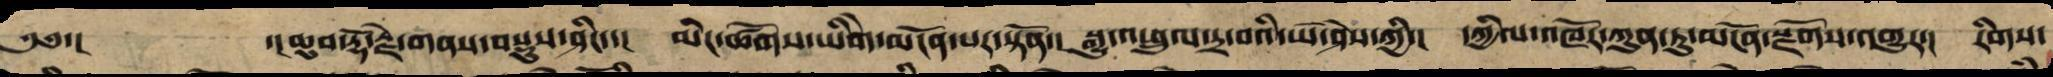༄༅་།  ་།ཆུབ་རྡོ་རྗེ་གནས་བསྡུས་ཤིང་་། མིང་ཚོགས་ཡི་གེ་མངོན་པར་སྟོན་། སྒྱུ་འཕྲུལ་དྲ་བའི་ཡེ་ཤེས་ཀྱིས་། དཀྱིལ་འཁོར་ཀུན་དུ་མངོན་སྫོགས་འགྱུར་། རིགས་
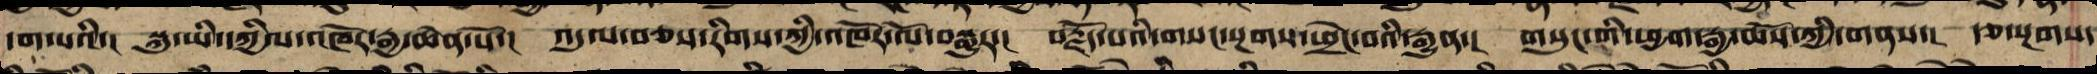དག་པའི་། སྐུ་ཡི་དཀྱིལ་འཁོར་རྒྱ་ཆེན་པོ་། འདུལ་བཅས་རིགས་ཀྱི་འཁོར་ལོ་བསྒྱུར་། བརྗོད་པའི་གསང་སྔགས་ཕྲེང་བའི་རྒྱུན་། གསུང་གི་ཕྱག་རྒྱ་ཆོས་ཀྱི་གནས་། རྩ་སྔགས་
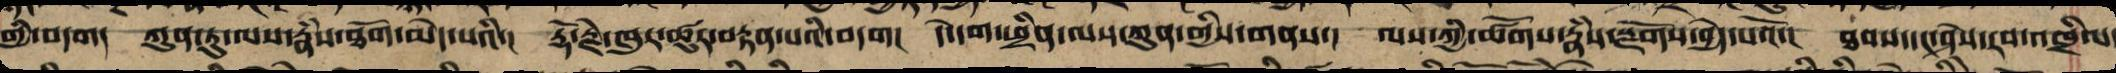གྱི་བདག། ཀུན་ཏུ་ལས་རྣཾས་ཐོག་མེད་པའི་། རྡོ་རྗེ་ཁུ་ཚུར་བརྟན་པའི་བདག། དེ་དག་ཕྲིན་ལས་ཀུན་གྱི་གནས་། ལས་ཀྱི་ཚོགས་རྣཾས་སྫོགས་བྱེད་པའོ་། ཐབས་དང་ཤེས་རབ་འཁྲིལ
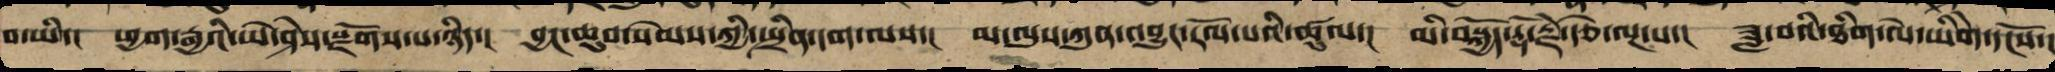པ་ཡི་། ཕྱག་རྒྱའི་ཡེ་ཤེས་སྫོགས་པ་ཉིད་། བྱང་ཆུབ་སེམས་ཀྱི་སྤྲིན་དག་ལས་། མ་ལུས་ཀུན་འབྱུང་རོལ་པའི་ཚུལ་། མི་བསྐྱོད་རྡོ་རྗེ་རྩེ་ལྔ་པ་། ཟླ་བའི་ཐིག་ལེ་ཡིགེ་དངོས་།
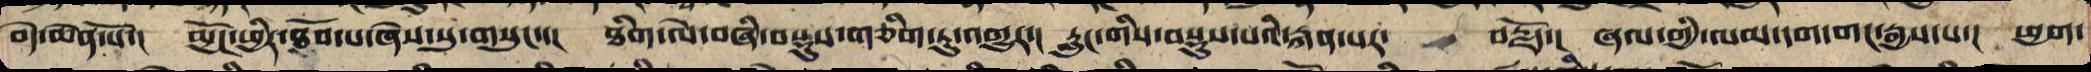བདེ་ཆེན་པོ་། མྱོང་ཕྱིར་ཐོབ་པ་ཞེས་སུ་གསུངས་། ཐིག་ལེ་བཞི་བསྡུས་གཅིག་ཏུ་འགྱུར་། རླུང་གིས་བསྡུས་པས་རྐན་པར་བརྗོད་། ཞལ་གྱི་ལམ་དག་གང་རྒྱས་པ་། ཕྱག་
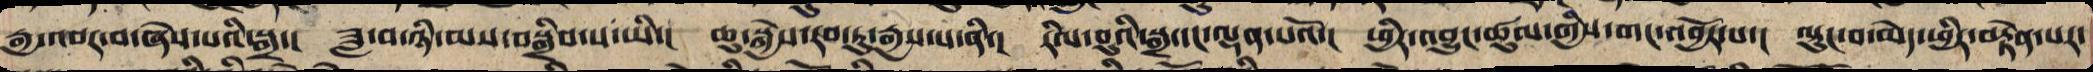རྒྱ་འབར་བ་ཞེས་པའི་སྒྲ་། ཟླ་བ་ཉི་མས་བསྒྲིབས་པ་ཡིས་། ཆུ་སྐྱེས་རབ་ཏུ་རྒྱས་པ་ནི་། དྲིལ་བུའི་སྒྲ་དང་ལྡན་པའོ་། ཕྱིར་འབྱུང་ཚུལ་གྱིས་གང་འབྱོར་པ་། ལྟུང་བ་མེད་ཕྱིར་བརྟེན་པར་
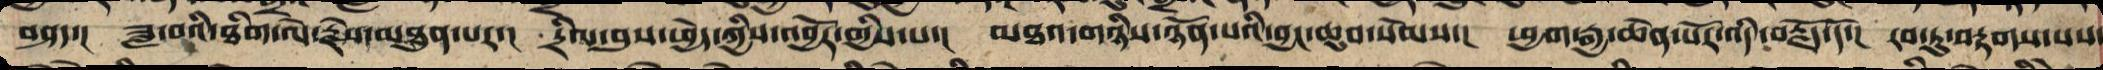བཤད་། ཟླ་བའི་ཐིག་ལེ་རྗེས་མཐུན་པར་། དྲིལ་བུས་ཕྱེད་ཀྱིས་འབྱོར་དགྱེས་པ་། མཐའ་གཉིས་ཉོ་ན་པའི་བྱང་ཆུབ་སེམས་། ཕྱག་རྒྱ་ཆེན་པོར་འདི་བརྗོད་དོ་། རབ་ཏུ་བརྟགས་པས་
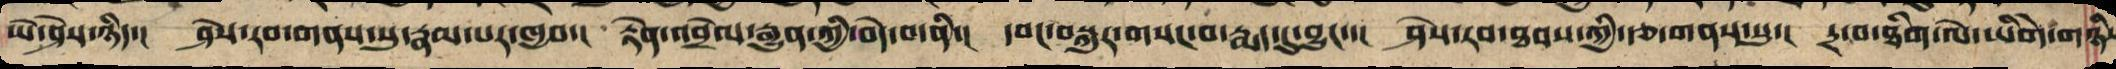ཡེ་ཤེས་ཉིད་། ཤེས་རབ་གནས་སུ་རྣམ་པར་ཁྱབ་། རྟེན་འབྲེལ་རྒྱན་གྱི་བདེ་བ་ནི་། དབང་བསྐུར་གསང་བ་རྨད་དུ་བྱུང་་། ཤེས་རབ་ཐབས་ཀྱིས་རྩ་གནས་སུ་། དྲ་བ་ཐིག་ལེ་ཡིགེ་གཉིས
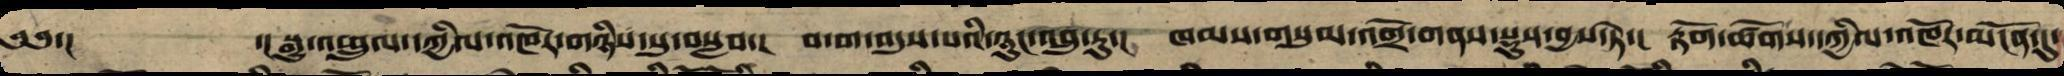༄༅་། ་།སྒྱུ་འཕྲུལ་དཀྱིལ་འཁོར་གཉིས་སུ་བསླབ་། བྷ་ག་འདུས་པའི་ཉུང་འབྲུ་རུ་། ཁམས་གསུམ་འགྲོ་གནས་བསྡུས་བྱས་ཏེ་། རྟོག་ཚོགས་དཀྱིལ་འཁོར་མངོན་དུ་
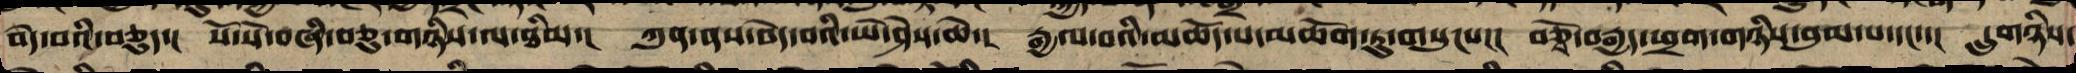བདེ་བའི་བཅུད་། སོ་སོ་བཞི་བཅུ་གཉིས་ལ་ཐིམ་། ཀུན་ནས་བདེ་བའི་ཡེ་ཤེས་ཆེ་། རྒྱལ་བའི་མཆོད་པ་མཆོག་ཏུ་གསུངས་། བཅྭོ་བརྒྱད་ཕྲག་གཉིས་བུམ་པ་དང་་། དྲུག་གཉིས་
